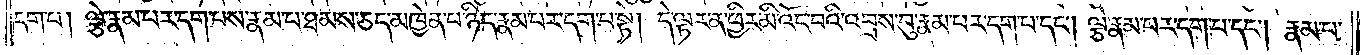དག་པ། ལྕེ་རྣམ་པར་དག་པས་རྣམ་པ་ཐམས་ཅད་མཁྱེན་པ་ཉིད་རྣམ་པར་དག་པ་སྟེ། དེ་ལྟར་ན་ཕྱིར་མ་འོང་བའི་འབྲས་བུ་རྣམ་པར་དག་པ་དང༌། ལྕེ་རྣམ་པར་དག་པ་དང༌། རྣམ་པ་
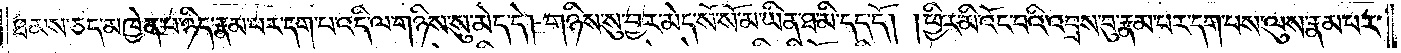ཐམས་ཅད་མཁྱེན་པ་ཉིད་རྣམ་པར་དག་པ་འདི་ལ་གཉིས་སུ་མེད་དེ། གཉིས་སུ་བྱར་མེད་སོ་སོ་མ་ཡིན་ཐ་མི་དད་དོ། །ཕྱིར་མི་འོང་བའི་འབྲས་བུ་རྣམ་པར་དག་པས་ལུས་རྣམ་པར་
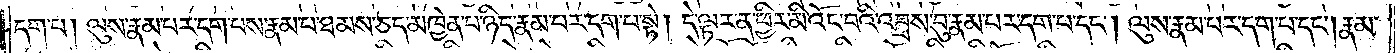དག་པ། ལུས་རྣམ་པར་དག་པས་རྣམ་པ་ཐམས་ཅད་མཁྱེན་པ་ཉིད་རྣམ་པར་དག་པ་སྟེ། དེ་ལྟར་ན་ཕྱིར་མི་འོང་བའི་འབྲས་བུ་རྣམ་པར་དག་པ་དང༌། ལུས་རྣམ་པར་དག་པ་དང༌། རྣམ་
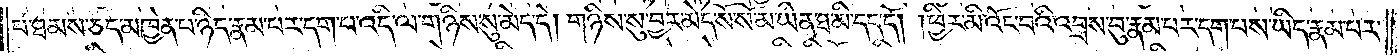པ་ཐམས་ཅད་མཁྱེན་པ་ཉིད་རྣམ་པར་དག་པ་འདི་ལ་གཉིས་སུ་མེད་དེ། གཉིས་སུ་བྱར་མེད་སོ་སོ་མ་ཡིན་ཐ་མི་དད་དོ། །ཕྱིར་མི་འོང་བའི་འབྲས་བུ་རྣམ་པར་དག་པས་ཡིད་རྣམ་པར་
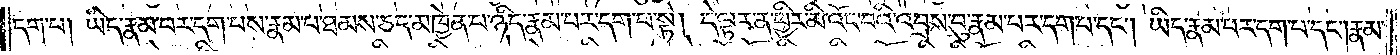དག་པ། ཡིད་རྣམ་པར་དག་པས་རྣམ་པ་ཐམས་ཅད་མཁྱེན་པ་ཉིད་རྣམ་པར་དག་པ་སྟེ། དེ་ལྟར་ན་ཕྱིར་མི་འོང་བའི་འབྲས་བུ་རྣམ་པར་དག་པ་དང༌། ཡིད་རྣམ་པར་དག་པ་དང༌། རྣམ་
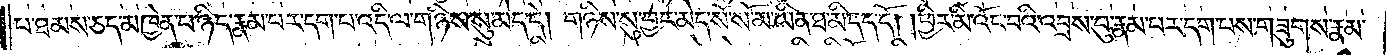པ་ཐམས་ཅད་མཁྱེན་པ་ཉིད་རྣམ་པར་དག་པ་འདི་ལ་གཉིས་སུ་མེད་དེ། གཉིས་སུ་བྱར་མེད་སོ་སོ་མ་ཡིན་ཐ་མི་དད་དོ། །ཕྱིར་མི་འོང་བའི་འབྲས་བུ་རྣམ་པར་དག་པས་གཟུགས་རྣམ་
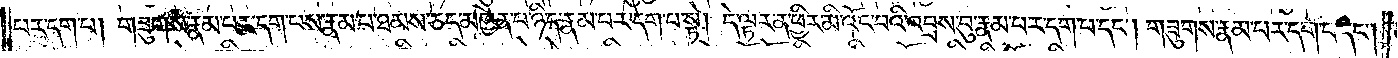པར་དག་པ། གཟུགས་རྣམ་པར་དག་པས་རྣམ་པ་ཐམས་ཅད་མཁྱེན་པ་ཉིད་རྣམ་པར་དག་པ་སྟེ། དེ་ལྟར་ན་ཕྱིར་མི་འོང་བའི་འབྲས་བུ་རྣམ་པར་དག་པ་དང༌། གཟུགས་རྣམ་པར་དག་པ་དང༌།
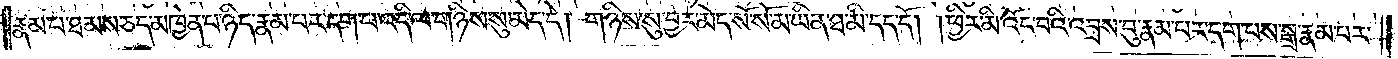རྣམ་པ་ཐམས་ཅད་མཁྱེན་པ་ཉིད་རྣམ་པར་དག་པ་འདི་ལ་གཉིས་སུ་མེད་དེ། གཉིས་སུ་བྱར་མེད་སོ་སོ་མ་ཡིན་ཐ་མི་དད་དོ། །ཕྱིར་མི་འོང་བའི་འབྲས་བུ་རྣམ་པར་དག་པས་སྒྲ་རྣམ་པར་
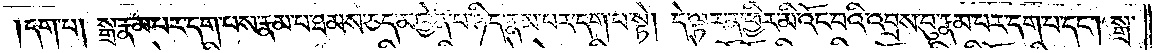དག་པ། སྒྲ་རྣམ་པར་དག་པས་རྣམ་པ་ཐམས་ཅད་མཁྱེན་པ་ཉིད་རྣམ་པར་དག་པ་སྟེ། དེ་ལྟར་ན་ཕྱིར་མི་འོང་བའི་འབྲས་བུ་རྣམ་པར་དག་པ་དང༌། སྒྲ་
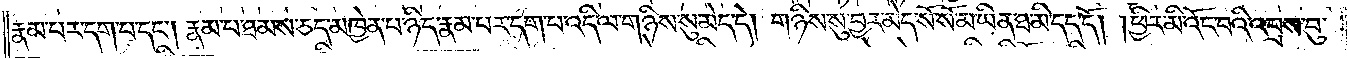རྣམ་པར་དག་པ་དང༌། རྣམ་པ་ཐམས་ཅད་མཁྱེན་པ་ཉིད་རྣམ་པར་དག་པ་འདི་ལ་གཉིས་སུ་མེད་དེ། གཉིས་སུ་བྱར་མེད་སོ་སོ་མ་ཡིན་ཐ་མི་དད་དོ། །ཕྱིར་མི་འོང་བའི་འབྲས་བུ་
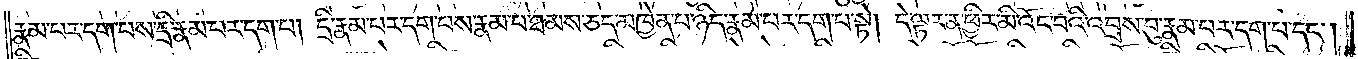རྣམ་པར་དག་པས་དྲི་རྣམ་པར་དག་པ། དྲི་རྣམ་པར་དག་པས་རྣམ་པ་ཐམས་ཅད་མཁྱེན་པ་ཉིད་རྣམ་པར་དག་པ་སྟེ། དེ་ལྟར་ན་ཕྱིར་མི་འོང་བའི་འབྲས་བུ་རྣམ་པར་དག་པ་དང༌།
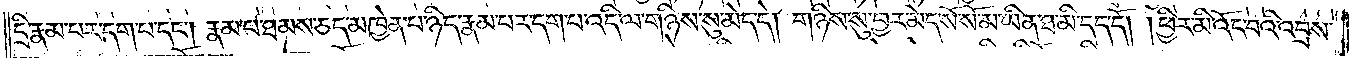དྲི་རྣམ་པར་དག་པ་དང༌། རྣམ་པ་ཐམས་ཅད་མཁྱེན་པ་ཉིད་རྣམ་པར་དག་པ་འདི་ལ་གཉིས་སུ་མེད་དེ། གཉིས་སུ་བྱར་མེད་སོ་སོ་མ་ཡིན་ཐ་མི་དད་དོ། །ཕྱིར་མི་འོང་བའི་འབྲས་
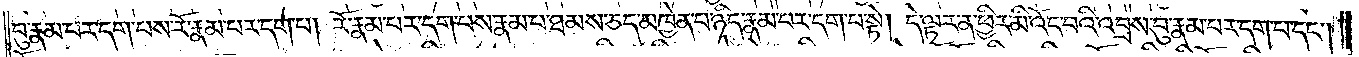བུ་རྣམ་པར་དག་པས་རོ་རྣམ་པར་དག་པ། རོ་རྣམ་པར་དག་པས་རྣམ་པ་ཐམས་ཅད་མཁྱེན་པ་ཉིད་རྣམ་པར་དག་པ་སྟེ། དེ་ལྟར་ན་ཕྱིར་མི་འོང་བའི་འབྲས་བུ་རྣམ་པར་དག་པ་དང༌།
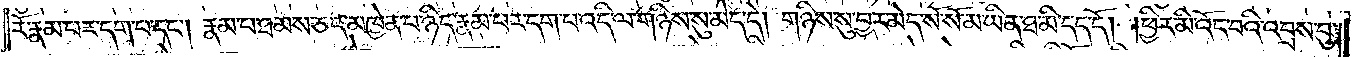རོ་རྣམ་པར་དག་པ་དང༌། རྣམ་པ་ཐམས་ཅད་མཁྱེན་པ་ཉིད་རྣམ་པར་དག་པ་འདི་ལ་གཉིས་སུ་མེད་དེ། གཉིས་སུ་བྱར་མེད་སོ་སོ་མ་ཡིན་ཐ་མི་དད་དོ། །ཕྱིར་མི་འོང་བའི་འབྲས་བུ་
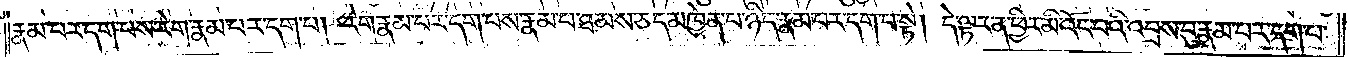རྣམ་པར་དག་པས་རེག་རྣམ་པར་དག་པ། རེག་རྣམ་པར་དག་པས་རྣམ་པ་ཐམས་ཅད་མཁྱེན་པ་ཉིད་རྣམ་པར་དག་པ་སྟེ། དེ་ལྟར་ན་ཕྱིར་མི་འོང་བའི་འབྲས་བུ་རྣམ་པར་དག་པ་
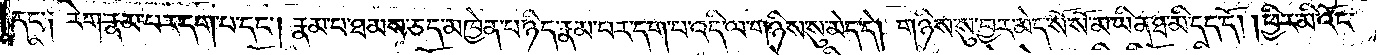དང་༑ རེག་རྣམ་པར་དག་པ་དང༌། རྣམ་པ་ཐམས་ཅད་མཁྱེན་པ་ཉིད་རྣམ་པར་དག་པ་འདི་ལ་གཉིས་སུ་མེད་དེ། གཉིས་སུ་བྱར་མེད་སོ་སོ་མ་ཡིན་ཐ་མི་དད་དོ། །ཕྱིར་མི་འོང་
